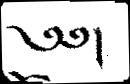༄༅།
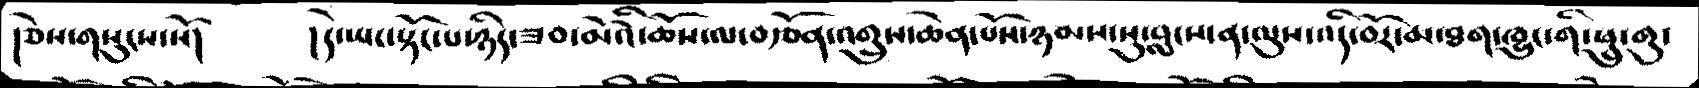།ཅེས་གསུངས་སོ།   །དེ་ཡང་སྟོང་པ་ཉིད་ཟབ་མོའི་ཆོས་ལ་བརྩོན་འགྲུས་ཆེན་པོས་ཉམས་སུ་བླངས་ན་ལུས་འདི་བོར་མ་ཐག་ཁྱུང་གི་ཕྲུ་གུ་
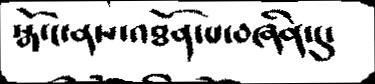སྒོ་ང་ནས་འཐོན་པ་བཞིན་དུ་
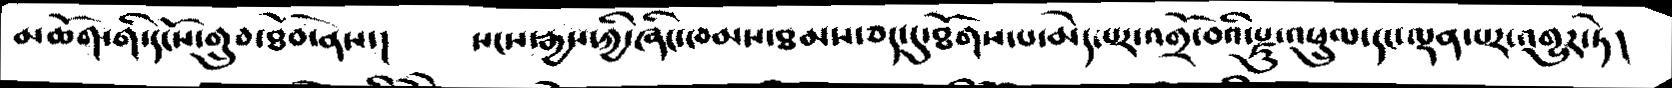མཆོག་གི་དངོས་གྲུབ་ཐོབ་ནས་།    སངས་རྒྱས་ཀྱི་ཞིང་ཁམས་ཐམས་ཅད་དུ་ཐོགས་པ་མེད་པར་འགྲོ་བའི་རྫུ་འཕྲུལ་དང་ལྡན་པར་འགྱུར་ཏེ།
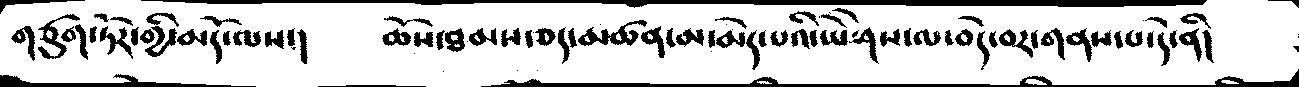གཙུག་ཏོར་གྱི་མདོ་ལས་།    ཆོས་ཐམས་ཅད་མཚན་མ་མེད་པའི་ཡེ་ཤེས་ལ་བདེ་བར་གནས་པ་དེ་ནི།
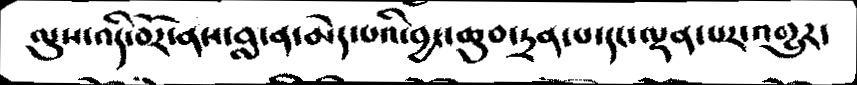ལུས་འདི་བོར་ནས་བླ་ན་མེད་པའི་བྱང་ཆུབ་དྲན་པ་དང་ལྡན་པར་འགྱུར་
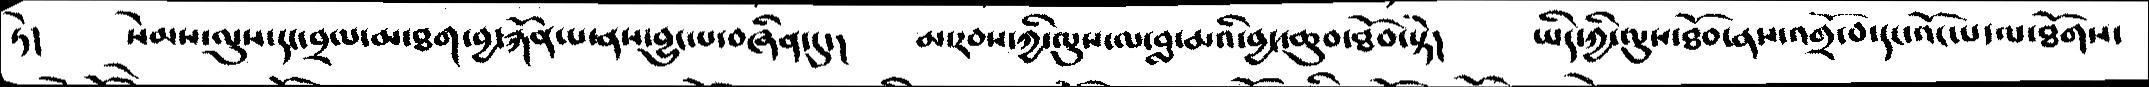ཏེ།   སེམས་ལུས་དང་བྲལ་མ་ཐག་བྱ་རྐོན་པ་ནས་བྱུང་པ་བཞིན་དུ་།   མ་རབས་ཀྱི་ལུས་ལ་བླ་མའི་བྱང་ཆུབ་ཐོབ་སྟེ།   ཡིད་ཀྱི་ལུས་ཐོབ་ནས་འགྲོ་བ་དང་འོང་པ་ལ་ཐོགས་
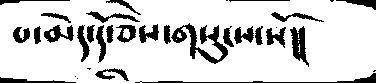པ་མེད་དོ་ཅེས་གསུངས་སོ།།
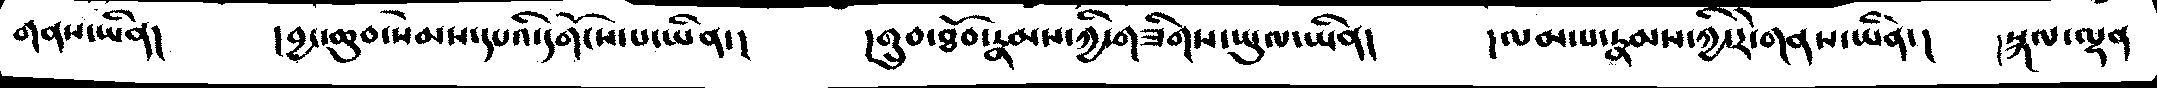གནས་ཡིན།   །བྱང་ཆུབ་སེམས་དཔའི་དགོངས་པ་ཡིན་།   །གྲུབ་ཐོབ་རྣམས་ཀྱི་གཟིགས་ཡུལ་ཡིན།   །ལམ་པ་རྣམས་ཀྱི་རེ་གནས་ཡིན།   །སྐལ་ལྡན
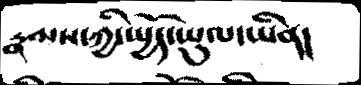རྣམས་ཀྱི་སྤྱོད་ཡུལ་ཡིན།
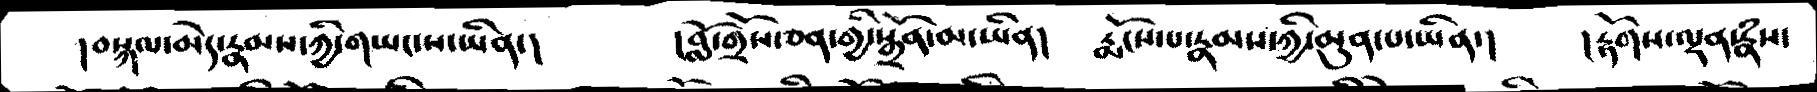།བསྐལ་མེད་རྣམས་ཀྱི་གཡང་ས་ཡིན་།    །བློ་གྲོས་ཅན་གྱི་སྒྲོན་མ་ཡིན།   རྨོངས་པ་རྣམས་ཀྱི་མུན་པ་ཡིན་།   །རྟོགས་ལྡན་རྣཾས་
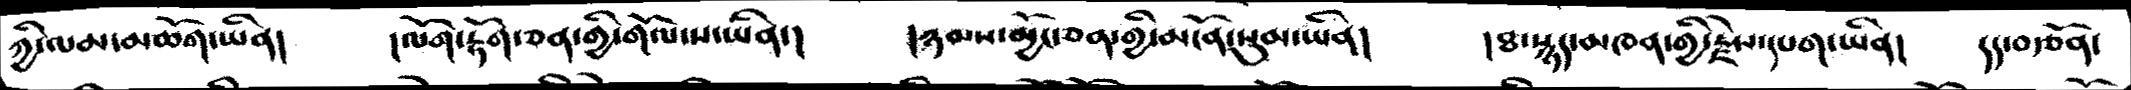ཀྱི་ལམ་མཆོག་ཡིན།   །ལོག་རྟོག་ཅན་གྱི་གོལ་ས་ཡིན་།    །ཉམས་མྱོང་ཅན་གྱི་མངོན་སུམ་ཡིན།   །ཐ་སྙད་མཁན་གྱི་རྗེས་དཔག་ཡིན།   དད་བརྩོན་
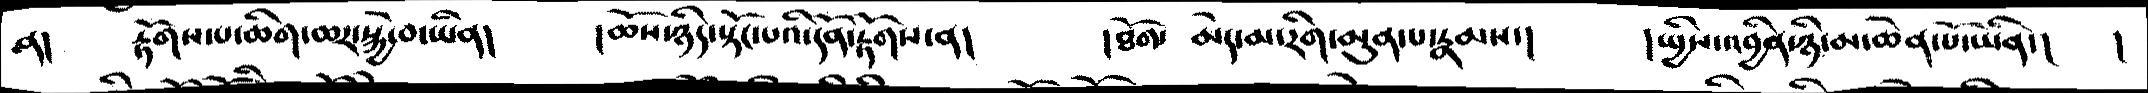ན།   རྟོགས་པ་ཆིག་ཆར་སྐྱེ་བ་ཡིན།   །ཆོས་ཉིད་སྟོང་པའི་དོན་རྟོགས་ན།    །ཐོག་  མེད་མ་རིག་མུན་པ་རྣམས་།   །སྤྱིས་འབྱིན་ཉི་མ་ཆེན་པོ་ཡིན་།   །
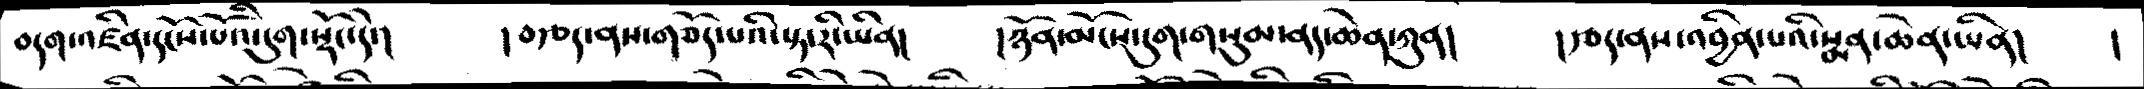བདག་འཛིན་དངོས་པོའི་དུག་སྡོང་དེ་།   །བརྩད་ནས་གཅོད་པའི་སྟ་རི་ཡིན།   །ཉོན་མོངས་དུག་གསུམ་ནད་ཆེན་ཀུན།   །རྩད་ནས་འབྱིན་པའི་སྨན་ཆེན་ཡིན།   །
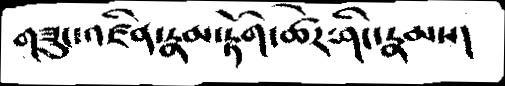གཟུང་འཛིན་རྣམ་རྟོག་ཚེར་ཤིང་རྣམས།
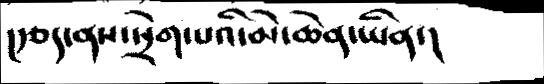།རྩད་ནས་སྲེག་པའི་མེ་ཆེན་ཡིན་།
